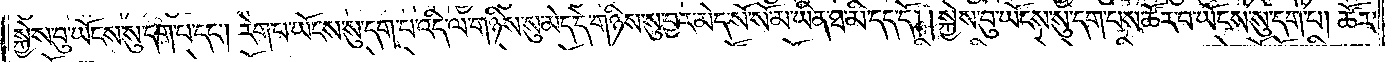སྐྱེས་བུ་ཡོངས་སུ་དག་པ་དང༌། རེག་པ་ཡོངས་སུ་དག་པ་འདི་ལ་གཉིས་སུ་མེད་དེ། གཉིས་སུ་བྱར་མེད་སོ་སོ་མ་ཡིན་ཐ་མི་དད་དོ། །སྐྱེས་བུ་ཡོངས་སུ་དག་པས་ཚོར་བ་ཡོངས་སུ་དག་པ། ཚོར་
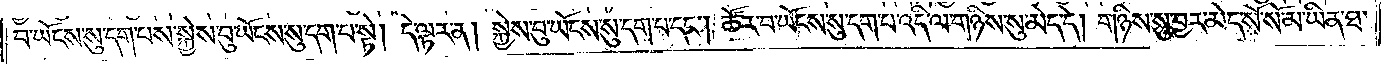བ་ཡོངས་སུ་དག་པས་སྐྱེས་བུ་ཡོངས་སུ་དག་པ་སྟེ། དེ་ལྟར་ན། སྐྱེས་བུ་ཡོངས་སུ་དག་པ་དང༌། ཚོར་བ་ཡོངས་སུ་དག་པ་འདི་ལ་གཉིས་སུ་མེད་དེ། གཉིས་སུ་བྱར་མེད་སོ་སོ་མ་ཡིན་ཐ་
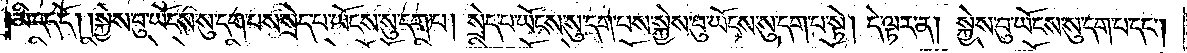མི་དད་དོ། །སྐྱེས་བུ་ཡོངས་སུ་དག་པས་སྲེད་པ་ཡོངས་སུ་དག་པ། སྲེད་པ་ཡོངས་སུ་དག་པས་སྐྱེས་བུ་ཡོངས་སུ་དག་པ་སྟེ། དེ་ལྟར་ན། སྐྱེས་བུ་ཡོངས་སུ་དག་པ་དང༌།
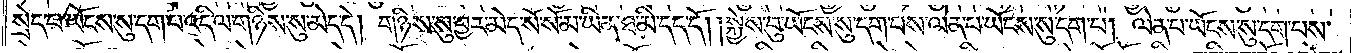སྲེད་པ་ཡོངས་སུ་དག་པ་འདི་ལ་གཉིས་སུ་མེད་དེ། གཉིས་སུ་བྱར་མེད་སོ་སོ་མ་ཡིན་ཐ་མི་དད་དོ། །སྐྱེས་བུ་ཡོངས་སུ་དག་པས་ལེན་པ་ཡོངས་སུ་དག་པ། ལེན་པ་ཡོངས་སུ་དག་པས་
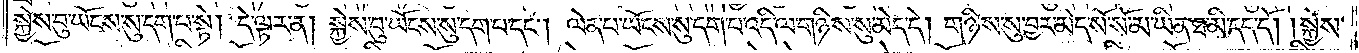སྐྱེས་བུ་ཡོངས་སུ་དག་པ་སྟེ། དེ་ལྟར་ན། སྐྱེས་བུ་ཡོངས་སུ་དག་པ་དང༌། ལེན་པ་ཡོངས་སུ་དག་པ་འདི་ལ་གཉིས་སུ་མེད་དེ། གཉིས་སུ་བྱར་མེད་སོ་སོ་མ་ཡིན་ཐ་མི་དད་དོ། །སྐྱེས་
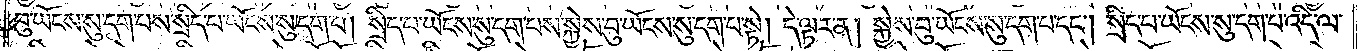བུ་ཡོངས་སུ་དག་པས་སྲིད་པ་ཡོངས་སུ་དག་པ། སྲིད་པ་ཡོངས་སུ་དག་པས་སྐྱེས་བུ་ཡོངས་སུ་དག་པ་སྟེ། དེ་ལྟར་ན། སྐྱེས་བུ་ཡོངས་སུ་དག་པ་དང༌། སྲིད་པ་ཡོངས་སུ་དག་པ་འདི་ལ་
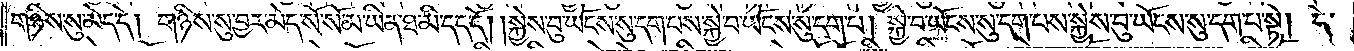གཉིས་སུ་མེད་དེ། གཉིས་སུ་བྱར་མེད་སོ་སོ་མ་ཡིན་ཐ་མི་དད་དོ། །སྐྱེས་བུ་ཡོངས་སུ་དག་པས་སྐྱེ་བ་ཡོངས་སུ་དག་པ། སྐྱེ་བ་ཡོངས་སུ་དག་པས་སྐྱེས་བུ་ཡོངས་སུ་དག་པ་སྟེ། དེ་
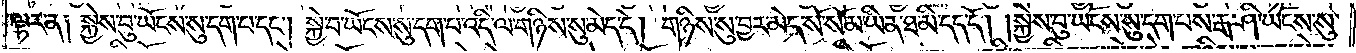ལྟར་ན། སྐྱེས་བུ་ཡོངས་སུ་དག་པ་དང༌། སྐྱེ་བ་ཡོངས་སུ་དག་པ་འདི་ལ་གཉིས་སུ་མེད་དེ། གཉིས་སུ་བྱར་མེད་སོ་སོ་མ་ཡིན་ཐ་མི་དད་དོ། །སྐྱེས་བུ་ཡོངས་སུ་དག་པས་རྒ་ཤི་ཡོངས་སུ་
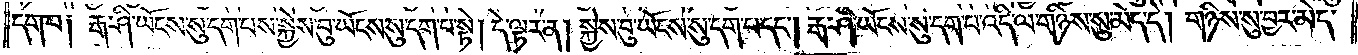དག་པ༑ རྒ་ཤི་ཡོངས་སུ་དག་པས་སྐྱེས་བུ་ཡོངས་སུ་དག་པ་སྟེ། དེ་ལྟར་ན། སྐྱེས་བུ་ཡོངས་སུ་དག་པ་དང༌། རྒ་ཤི་ཡོངས་སུ་དག་པ་འདི་ལ་གཉིས་སུ་མེད་དེ། གཉིས་སུ་བྱར་མེད་
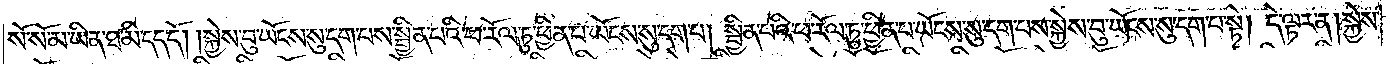སོ་སོ་མ་ཡིན་ཐ་མི་དད་དོ། །སྐྱེས་བུ་ཡོངས་སུ་དག་པས་སྦྱིན་པའི་ཕ་རོལ་ཏུ་ཕྱིན་པ་ཡོངས་སུ་དག་པ། སྦྱིན་པའི་ཕ་རོལ་ཏུ་ཕྱིན་པ་ཡོངས་སུ་དག་པས་སྐྱེས་བུ་ཡོངས་སུ་དག་པ་སྟེ། དེ་ལྟར་ན། སྐྱེས་
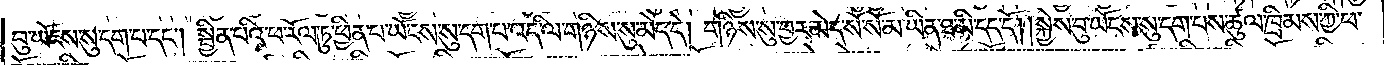བུ་ཡོངས་སུ་དག་པ་དང༌། སྦྱིན་པའི་ཕ་རོལ་ཏུ་ཕྱིན་པ་ཡོངས་སུ་དག་པ་འདི་ལ་གཉིས་སུ་མེད་དེ། གཉིས་སུ་བྱར་མེད་སོ་སོ་མ་ཡིན་ཐ་མི་དད་དོ། །སྐྱེས་བུ་ཡོངས་སུ་དག་པས་ཚུལ་ཁྲིམས་ཀྱི་ཕ་
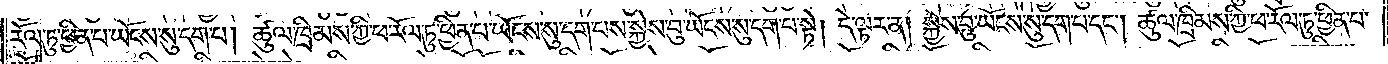རོལ་ཏུ་ཕྱིན་པ་ཡོངས་སུ་དག་པ། ཚུལ་ཁྲིམས་ཀྱི་ཕ་རོལ་ཏུ་ཕྱིན་པ་ཡོངས་སུ་དག་པས་སྐྱེས་བུ་ཡོངས་སུ་དག་པ་སྟེ། དེ་ལྟར་ན། སྐྱེས་བུ་ཡོངས་སུ་དག་པ་དང༌། ཚུལ་ཁྲིམས་ཀྱི་ཕ་རོལ་ཏུ་ཕྱིན་པ་
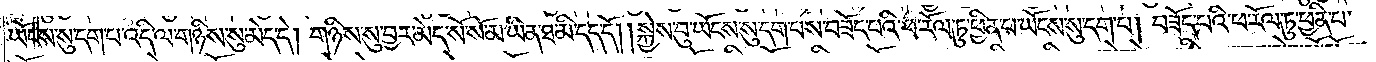ཡོངས་སུ་དག་པ་འདི་ལ་གཉིས་སུ་མེད་དེ། གཉིས་སུ་བྱར་མེད་སོ་སོ་མ་ཡིན་ཐ་མི་དད་དོ། །སྐྱེས་བུ་ཡོངས་སུ་དག་པས་བཟོད་པའི་ཕ་རོལ་ཏུ་ཕྱིན་པ་ཡོངས་སུ་དག་པ། བཟོད་པའི་ཕ་རོལ་ཏུ་ཕྱིན་པ་
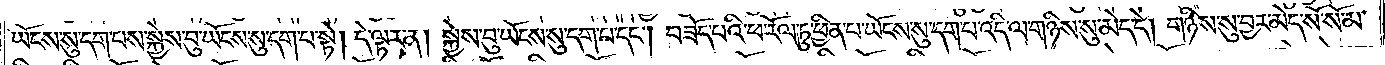ཡོངས་སུ་དག་པས་སྐྱེས་བུ་ཡོངས་སུ་དག་པ་སྟེ། དེ་ལྟར་ན། སྐྱེས་བུ་ཡོངས་སུ་དག་པ་དང༌། བཟོད་པའི་ཕ་རོལ་ཏུ་ཕྱིན་པ་ཡོངས་སུ་དག་པ་འདི་ལ་གཉིས་སུ་མེད་དེ། གཉིས་སུ་བྱར་མེད་སོ་སོ་མ་
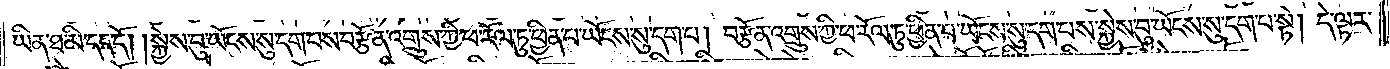ཡིན་ཐ་མི་དད་དོ། །སྐྱེས་བུ་ཡོངས་སུ་དག་པས་བརྩོན་འགྲུས་ཀྱི་ཕ་རོལ་ཏུ་ཕྱིན་པ་ཡོངས་སུ་དག་པ། བརྩོན་འགྲུས་ཀྱི་ཕ་རོལ་ཏུ་ཕྱིན་པ་ཡོངས་སུ་དག་པས་སྐྱེས་བུ་ཡོངས་སུ་དག་པ་སྟེ། དེ་ལྟར་
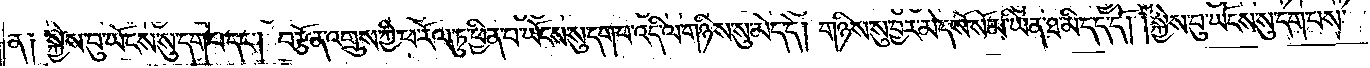ན༑ སྐྱེས་བུ་ཡོངས་སུ་དག་པ་དང༌། བརྩོན་འགྲུས་ཀྱི་ཕ་རོལ་ཏུ་ཕྱིན་པ་ཡོངས་སུ་དག་པ་འདི་ལ་གཉིས་སུ་མེད་དེ། གཉིས་སུ་བྱར་མེད་སོ་སོ་མ་ཡིན་ཐ་མི་དད་དོ། །སྐྱེས་བུ་ཡོངས་སུ་དག་པས་
